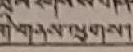གི་གནས་ལུགས་།
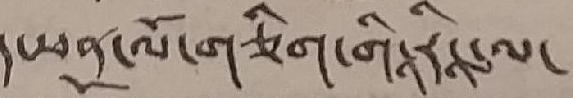ད་ཕན་ལོ་གཅིག་གི་རིང་ལ་
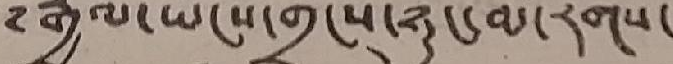༸རྒྱལ་ཡོངས་གྲངས་ཉུང་མི་རིགས་
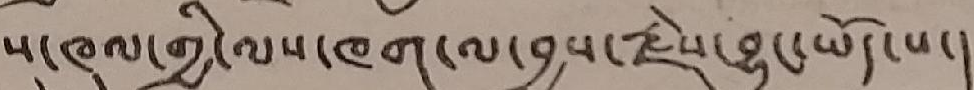ས་ཁུལ་གྱི་ལས་ཁག་ལ་བྱས་རྗེས་བྱུང་ཡོད་པ་།
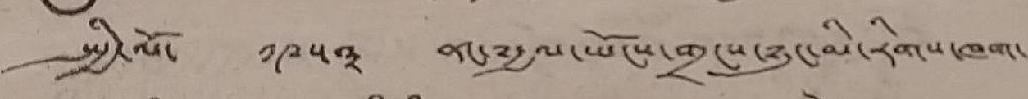སྤྱི་ལོ་ ༩༥༣ ང་༸རྒྱལ་ཡོངས་གྲངས་ཉུང་མི་རིགས་ཁག་
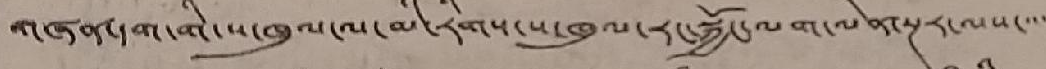གཞན་དག་གི་ས་ཁུལ་མི་རིགས་ས་ཁུལ་རང་སྐྱོང་ལག་ལེན་སྔར་ལས་་་་
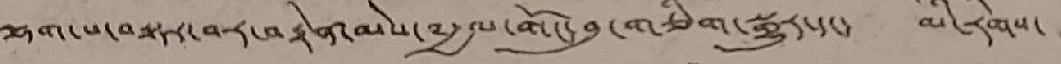ལྷག་པ་བསྟར་བར་བརྟེན་མེས་༸རྒྱལ་གོང་བུ་གཅིག་སྒྱུར་དང་ མི་རིགས་
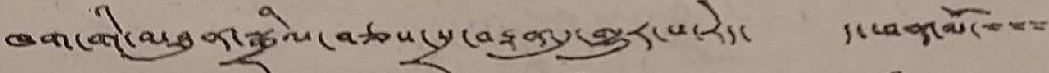ཁག་གི་མཐུན་སྒྲིལ་བཅས་སྲ་བརྟན་དུ་གྱུར་པ་རེད་ ད་ཕན་མོ་་་་
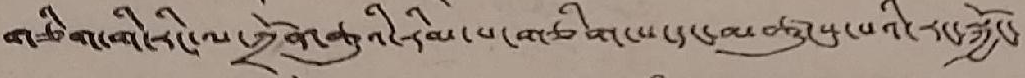གཅིག་གི་རིང་ལ་ཀྲོན་ཆུའི་རིམ་པ་གཅིག་པ་དང་མཚུངས་པའི་རང་སྐྱོང་
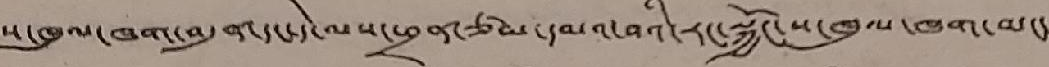ས་ཁུལ་ཁག་བདུན་དང་དེ་ལས་ཕྲན་ཙམ་དམའ་བའི་རང་སྐྱོང་ས་ཁུལ་ཁག་མང་
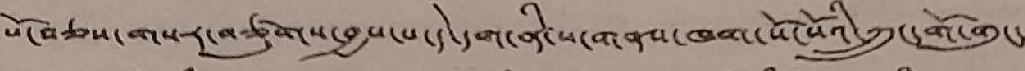པོ་བཅས་གསར་བཙུགས་བྱས་པ་དེ་དག་ནི་ས་གནས་ཁག་སོ་སོའི་ཀྲུང་གོ་གུང་་་
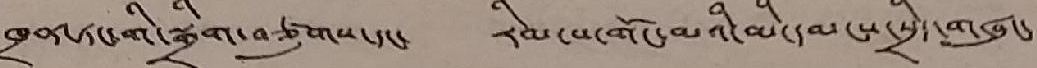ཁྲན་ཏང་གི་སྒྲིག་བཙུགས་དང་ རིམ་པ་གོང་མའི་མི་དམངས་སརིད་གཞུང་
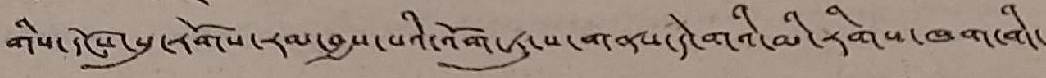གིས་དངོས་སུ་རོགས་རམ་བྱས་པའི་འོག་ཏུ་ས་གནས་དེ་གའི་མི་རིགས་ཁག་གི་
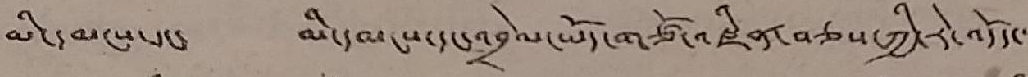མི་དམངས་དང་ མི་དམངས་དང་འབྲེལ་ཡོད་གཙོ་འཛིན་བཅས་ཀྱི་རེ་འདོད་་
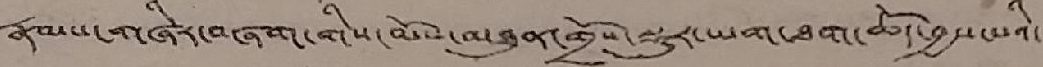རྣམས་གཞིར་བཞག་གིས་མོས་མཐུན་གྲོས་སྡུར་ཡག་ཐག་བྱས་པའི་
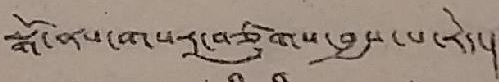སྒོ་ནས་གསར་བཙུགས་བྱས་པ་རེད་།
